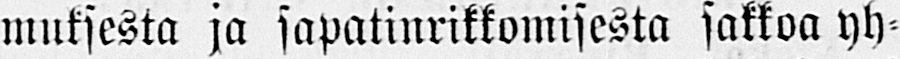muksesta ja sapatinrikkomisesta sakkoa yh-
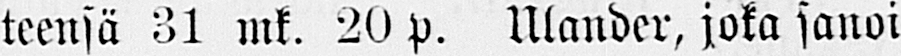teensä 31 mk. 20 p. Ulander, joka sanoi
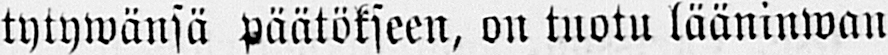tytywänsä päätökseen, on tuotu lääninwan-
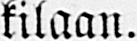kilaan.
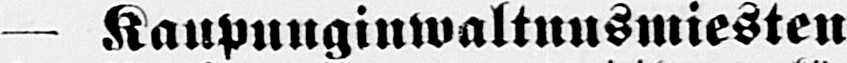— Kaupunginwaltuusmiesten
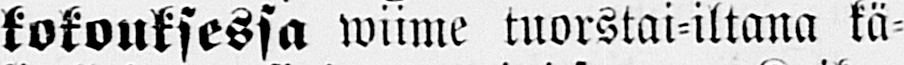kokouksessa wiime tuorstai-iltana kä-
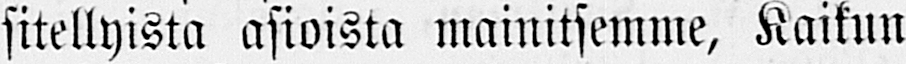sitellyistä asioista mainitsemme, Kaikun
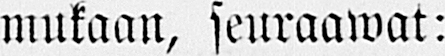mukaan, seuraawat:
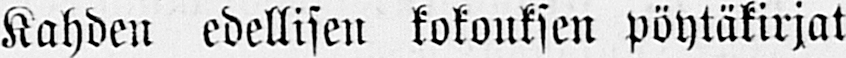Kahden edellisen kokouksen pöytäkirjat
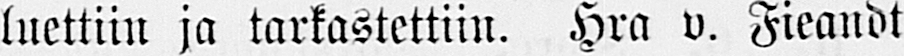luettiin ja tarkastettiin. Hra v. Fieandt
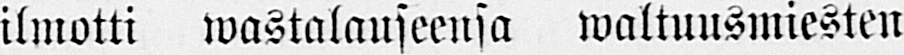ilmotti wastalauseensa waltuusmiesten
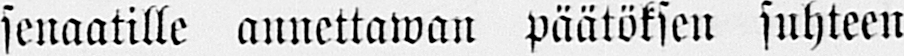senaatille annettawan päätöksen suhteen
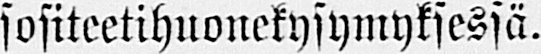sositeetihuonekysymyksessä.
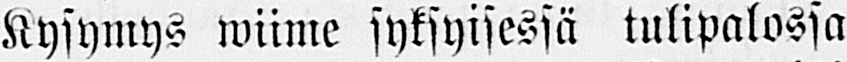Kysymys wiime syksyisessä tulipalossa
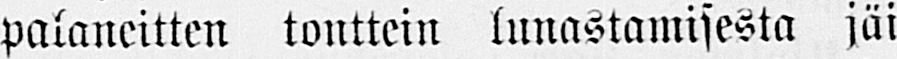palaneitten tonttein lunastamisesta jäi
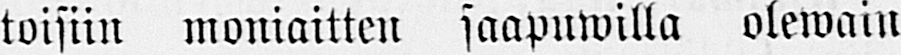toisiin moniaitten saapuwilla olewain
